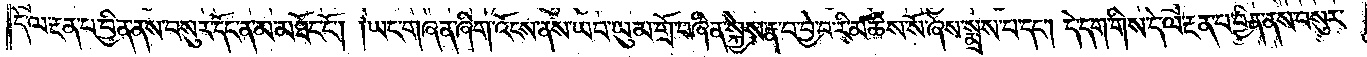དེ་ལ་རྔན་པ་བྱིན་ནས་བསུར་དོང་ན་མ་མཐོང་ངོ༌། །ཡང་གཞན་ཞིག་འོངས་ནས་ཡབ་ཡུམ་གྲོ་བཞིན་སྐྱེས་རྣ་བ་བྱེ་བ་རི་མཆིས་སོ་ཞེས་སྨྲས་པ་དང༌། དེ་དག་གིས་དེ་ལ་རྔན་པ་བྱིན་ནས་བསུར་
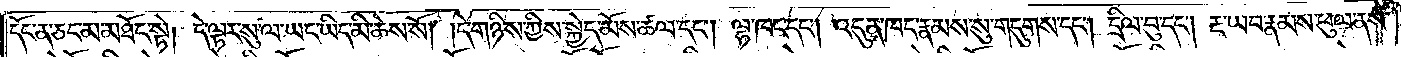དོང་ན་ཅད་མ་མཐོང་སྟེ། དེ་ལྟར་སུ་ལ་ཡང་ཡིད་མི་ཆེས་སོ། །དེ་གཉིས་ཀྱིས་སྐྱེད་མོས་ཚལ་དང༌། ལྷ་ཁང་དང༌། འདུན་ཁང་རྣམས་སུ་གདུགས་དང༌། དྲིལ་བུ་དང༌། རྔ་ཡབ་རྣམས་ཕུལ་ནས་
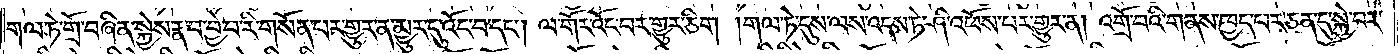གལ་ཏེ་གྲོ་བཞིན་སྐྱེས་རྣ་བ་བྱེ་བ་རི་གསོན་པར་གྱུར་ན་མྱུར་དུ་འོང་བ་དང༌། ལ་གོར་འོང་བར་གྱུར་ཅིག །གལ་ཏེ་དུས་ལས་འདས་ཏེ་ཤི་འཕོས་པར་གྱུར་ན། འགྲོ་བའི་གནས་ཁྱད་པར་ཅན་དུ་སྐྱེ་བར་
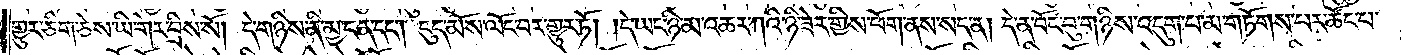གྱུར་ཅིག་ཅེས་ཡི་གེར་བྲིས་སོ། དེ་གཉིས་ནི་མྱ་ངན་དང༌། ངུད་མོས་ལོང་བར་གྱུར་ཏོ། །དེ་ཡང་ཉི་མ་འཆར་ཀའི་ཉི་ཟེར་གྱིས་ཕོག་ནས་སད་ན། དེ་ན་བོང་བུ་གཉིས་འདུག་པ་མ་གཏོགས་པར་ཚོང་པ་
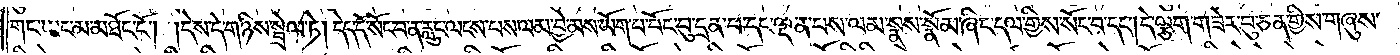གང་ཡང་མ་མཐོང་ངོ༌། །དེས་དེ་གཉིས་སྦྲེལ་ཏེ། དེད་དེ་སོང་བ་ན་རླུང་ལངས་པས་ལམ་བྱེ་མས་ཡོག་པ་བོང་བུ་དྲན་པ་དང་ལྡན་པས་ལམ་སྣས་སྣོམ་ཞིང་དལ་གྱིས་སོང་བ་དང༌། དེ་ལྕག་གཟེར་བུ་ཅན་གྱིས་གཞུས་
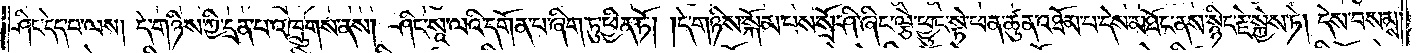ཤིང་དེད་པ་ལས། དེ་གཉིས་ཀྱི་དྲན་པ་འཁྲུགས་ནས། ཤིང་སཱ་ལའི་དགོན་པ་ཞིག་ཏུ་ཕྱིན་ཏོ། །དེ་གཉིས་སྐོམ་པས་སྲོ་ཤི་ཞིང་ལྕེ་ཕྱུང་སྟེ་ཕན་ཚུན་འཐོམ་པ་དེས་མཐོང་ནས་སྙིང་རྗེ་སྐྱེས་ཏེ། དེས་བསམས་
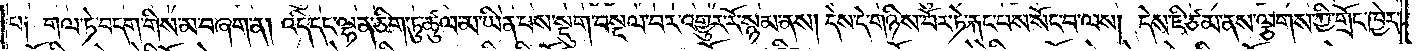པ༏  གལ་ཏེ་བདག་གིས་མ་བཞག་ན། འདི་དང་ལྷན་ཅིག་ཏུ་ཚུལ་མ་ཡིན་པས་སྡུག་བསྔལ་བར་འགྱུར་རོ་སྙམ་ནས། དེས་དེ་གཉིས་བོར་ཏེ་རྐང་བས་སོང་བ་ལས། དེས་ཇི་ཙམ་ནས་ལྕགས་ཀྱི་གྲོང་ཁྱེར་
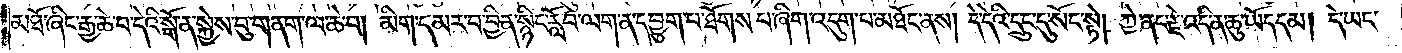མཐོ་ཞིང་རྒྱ་ཆེ་བ་དེའི་སྒོ་ན་སྐྱེས་བུ་གནག་ལ་ཆེ་བ། མིག་དམར་བ་བྱིན་སྙིག་རློབ་ལག་ན་དབྱུག་པ་ཐོགས་པ་ཞིག་འདུག་པ་མཐོང་ནས། དེ་དེའི་དྲུང་དུ་སོང་སྟེ། ཀྱེ་ནང་རྗེ་འདི་ན་ཆུ་ཡོད་དམ། དེ་ཡང་
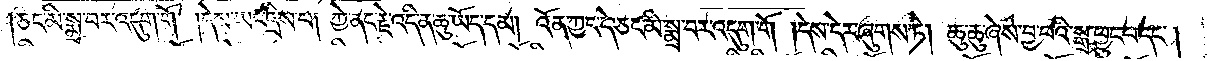ཅང་མི་སྨྲ་བར་འདུག་གོ །དེས་ཡང་དྲིས་པ། ཀྱེ་ནང་རྗེ་འདི་ན་ཆུ་ཡོད་དམ། འོན་ཀྱང་དེ་ཅང་མི་སྨྲ་བར་འདུག་གོ །དེས་དེར་ཞུགས་ཏེ། ཆུ་ཆུ་ཞེས་བྱ་བའི་སྒྲ་ཕྱུང་བ་དང༌།
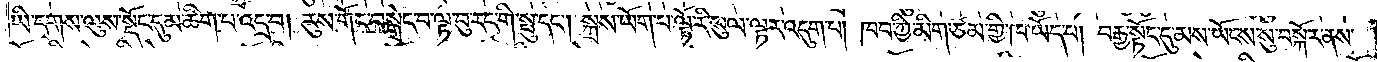ཡི་དྭགས་ལུས་སྡོང་དུམ་ཆིག་པ་འདྲ་བ། རུས་གོང་བསྒྲེང་བ་ལྟ་བུ་རང་གི་སྤུ་དང༌། སྐྲས་ཡོག་པ་ལྟོ་རི་སུལ་ལྟར་འདུག་པ། ཁབ་ཀྱི་མིག་ཙམ་གྱི་ཁ་ཡོད་པ། བརྒྱ་སྟོང་དུ་མས་ཡོངས་སུ་བསྐོར་ནས་
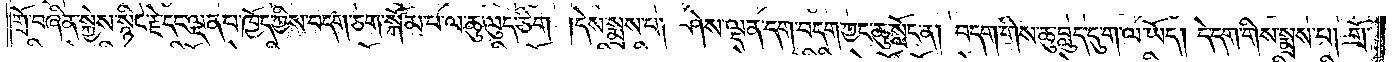གྲོ་བཞིན་སྐྱེས་སྙིང་རྗེ་དང་ལྡན་པ་ཁྱོད་ཀྱིས་བདག་ཅག་སྐོམ་པ་ལ་ཆུ་ལུད་ཅིག །དེས་སྨྲས་པ། ཤེས་ལྡན་དག་བདག་ཀྱང་ཆུ་སློང་ན། བདག་གིས་ཆུ་བླུད་དུ་ག་ལ་ཡོད། དེ་དག་གིས་སྨྲས་པ། གྲོ་
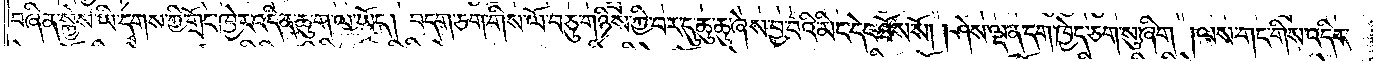བཞིན་སྐྱེས་ཡི་དྭགས་ཀྱི་གྲོང་ཁྱེར་འདི་ན་ཆུ་ག་ལ་ཡོད། བདག་ཅག་གིས་ལོ་བཅུ་གཉིས་ཀྱི་བར་དུ་ཆུ་ཆུ་ཞེས་བྱ་བའི་མིང་དེང་ཐོས་སོ། །ཤེས་ལྡན་དག་ཁྱེད་ཅག་སུ་ཞིག །ལས་གང་གིས་འདིར་
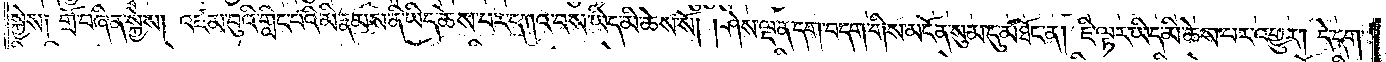སྐྱེས༏  གྲོ་བཞིན་སྐྱེས། འཛམ་བུའི་གླིང་པའི་མི་རྣམས་ནི་ཡིད་ཆེས་པར་དཀའ་བས་ཡིད་མི་ཆེས་སོ། །ཤེས་ལྡན་དག་བདག་གིས་མངོན་སུམ་དུ་མཐོང་ན། ཇི་ལྟར་ཡིད་མི་ཆེས་པར་འགྱུར། དེ་དག༏
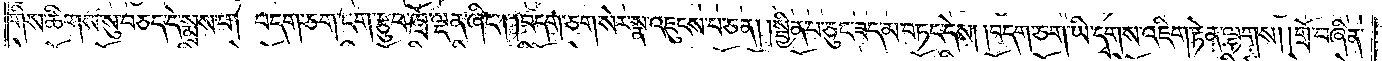གིས་ཚིགས་སུ་བཅད་དེ་སྨྲས་པ། བདག་ཅག་དག་རྩུབ་ཁྲོ་ལྡན་ཞིང༌། །བདག་ཅག་སེར་སྣ་འཇུངས་བ་ཅན། །སྦྱིན་པ་ཅུང་ཟད་མ་བཏང་དེས། །བདག་ཅག་ཡི་དྭགས་འཇིག་རྟེན་ལྷགས། །གྲོ་བཞིན་
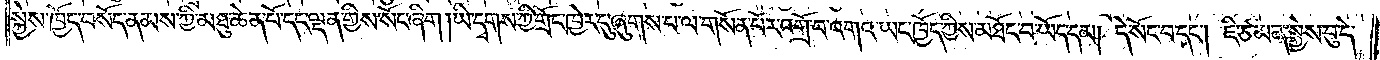སྐྱེས་ཁྱོད་བསོད་ནམས་ཀྱི་མཐུ་ཆེན་པོ་དང་ལྡན་གྱིས་སོང་ཞིག །ཡི་དྭགས་ཀྱི་གྲོང་ཁྱེར་དུ་ཞུགས་པ་ལ་གསོན་པོར་འགྲོ་བ་འགའ་ཡང་ཁྱོད་ཀྱིས་མཐོང་བ་ཡོད་དམ། དེ་སོང་བ་དང༌། ཇི་ཙམ་ན་སྐྱེས་བུ་དེ་
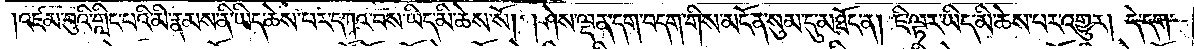འཛམ་བུའི་གླིང་པའི་མི་རྣམས་ནི་ཡིད་ཆེས་པར་དཀའ་བས་ཡིད་མི་ཆེས་སོ། །ཤེས་ལྡན་དག་བདག་གིས་མངོན་སུམ་དུ་མཐོང་ན། ཇི་ལྟར་ཡིད་མི་ཆེས་པར་འགྱུར། དེ་དག་
